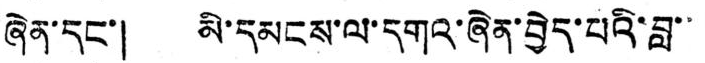ཞེན་དང་། མི་དམངས་ལ་དགའ་ཞེན་བྱད་པའི་བླ་་
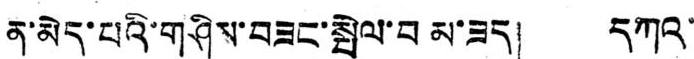ན་མེད་པའི་གཤིས་བཟང་སྤེལ་བ མ་ཟད། དཀའ་
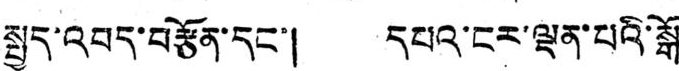སྤྱད་འབད་བརྩོན་དང་། དཔའ་ངར་ལྡན་པའི་སྒོ་
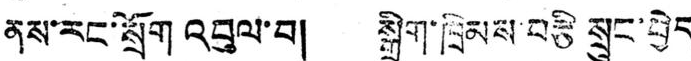ནས་རང་སྲོག འབུལ་བ། སྒྲིག་ཁྲིམས་བརྩི་སྲུང་བྱེད
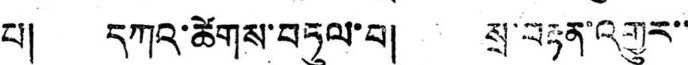པ། དཀའ་ཚེགས་བཏུལ་བ། སྲ་བརྟན་འགྱུར་་
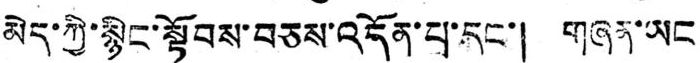མེད་ཀྱི་སྙིང་སྟོབས་བཅས་འདོན་པ་དང་། གཞན་ཡང
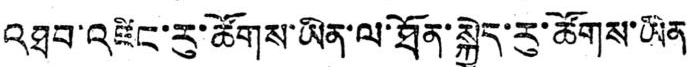འཐབ་འཛིང་རུ་ཚོགས་ཡིན་ལ་ཐོན་སྐྱེད་རུ་ཚོགས་ཡིན་
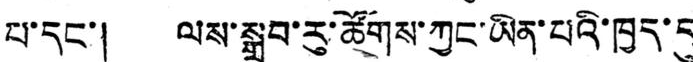པ་དང་། ལས་སྒྲུབ་རུ་ཚོགས་ཀྱང་ཡིན་པའི་ཁྱད་དུ
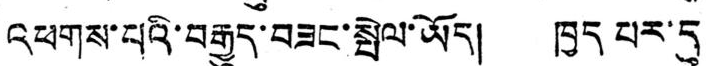འཕགས་པའི་བརྒྱུད་བཟང་སྤེ་ཡོད། ཁྱད པར་དུ
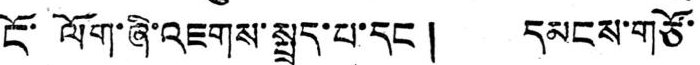ངོ་ལོག་ཞི་འཇགས་སྤྲད་པ་དང ། དམངས་གཙོ་
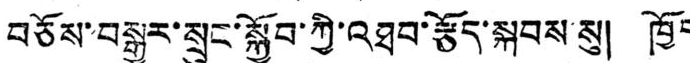བཅོས་བསྒྱུར་སྲུང་སྐྱོབ་ཀྱི་འཐབ་རྩོད་སྐབས་སུ། ཁྱོད
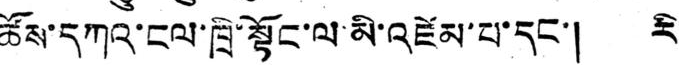ཚོས་དཀའ་ངལ་ཁྲི་སྟོང་ལ་མི་འཛེསྨ་པ་དང་། རི་
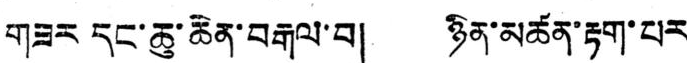གཟར དང་ཆུ་ཆེན་བརྒལ་བ། ཉིན་མཚན་རྟག་པར་
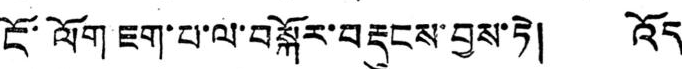ངོ་ལོག ཇག་པ་ལ་བསྐོར་བརྡུངས་བྱས་ཏེ། འོད་
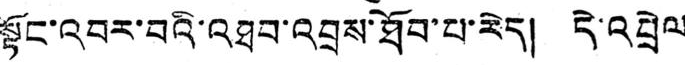སྟོང་འབར་བའི་འཐབ་འབྲས་ཐོབ་པ་རེད། དེ་འབྲེལ
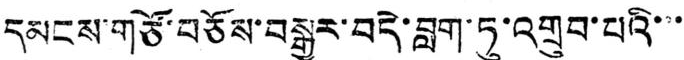དམངས་གཙོ་བཅོས་བསྒྱུར་བདེ་བླག་ཏུ་འགྲུབ་པའི་་་་
